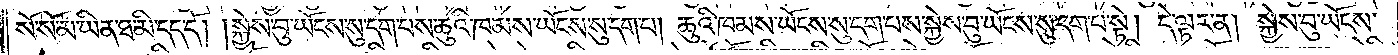སོ་སོ་མ་ཡིན་ཐ་མི་དད་དོ། །སྐྱེས་བུ་ཡོངས་སུ་དག་པས་ཆུའི་ཁམས་ཡོངས་སུ་དག་པ། ཆུའི་ཁམས་ཡོངས་སུ་དག་པས་སྐྱེས་བུ་ཡོངས་སུ་དག་པ་སྟེ། དེ་ལྟར་ན། སྐྱེས་བུ་ཡོངས་
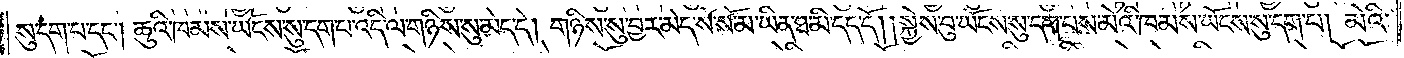སུ་དག་པ་དང༌། ཆུའི་ཁམས་ཡོངས་སུ་དག་པ་འདི་ལ་གཉིས་སུ་མེད་དེ། གཉིས་སུ་བྱར་མེད་སོ་སོ་མ་ཡིན་ཐ་མི་དད་དོ། །སྐྱེས་བུ་ཡོངས་སུ་དག་པས་མེའི་ཁམས་ཡོངས་སུ་དག་པ། མེའི་
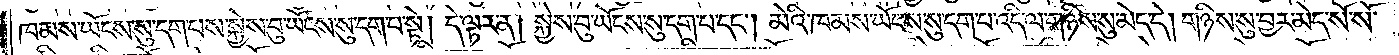ཁམས་ཡོངས་སུ་དག་པས་སྐྱེས་བུ་ཡོངས་སུ་དག་པ་སྟེ། དེ་ལྟར་ན། སྐྱེས་བུ་ཡོངས་སུ་དག་པ་དང༌། མེའི་ཁམས་ཡོངས་སུ་དག་པ་འདི་ལ་གཉིས་སུ་མེད་དེ། གཉིས་སུ་བྱར་མེད་སོ་སོ་
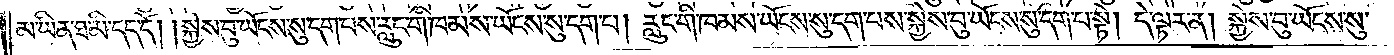མ་ཡིན་ཐ་མི་དད་དོ། །སྐྱེས་བུ་ཡོངས་སུ་དག་པས་རླུང་གི་ཁམས་ཡོངས་སུ་དག་པ། རླུང་གི་ཁམས་ཡོངས་སུ་དག་པས་སྐྱེས་བུ་ཡོངས་སུ་དག་པ་སྟེ། དེ་ལྟར་ན། སྐྱེས་བུ་ཡོངས་སུ་
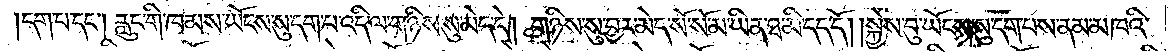དག་པ་དང༌། རླུང་གི་ཁམས་ཡོངས་སུ་དག་པ་འདི་ལ་གཉིས་སུ་མེད་དེ། གཉིས་སུ་བྱར་མེད་སོ་སོ་མ་ཡིན་ཐ་མི་དད་དོ། །སྐྱེས་བུ་ཡོངས་སུ་དག་པས་ནམ་མཁའི་
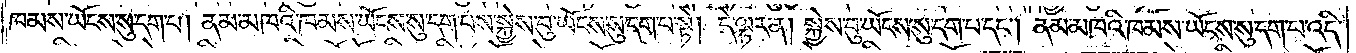ཁམས་ཡོངས་སུ་དག་པ། ནམ་མཁའི་ཁམས་ཡོངས་སུ་དག་པས་སྐྱེས་བུ་ཡོངས་སུ་དག་པ་སྟེ། དེ་ལྟར་ན། སྐྱེས་བུ་ཡོངས་སུ་དག་པ་དང༌། ནམ་མཁའི་ཁམས་ཡོངས་སུ་དག་པ་འདི་
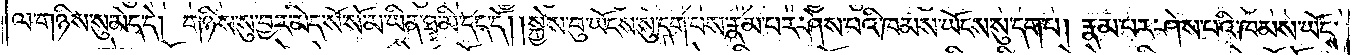ལ་གཉིས་སུ་མེད་དེ། གཉིས་སུ་བྱར་མེད་སོ་སོ་མ་ཡིན་ཐ་མི་དད་དོ། །སྐྱེས་བུ་ཡོངས་སུ་དག་པས་རྣམ་པར་ཤེས་པའི་ཁམས་ཡོངས་སུ་དག་པ། རྣམ་པར་ཤེས་པའི་ཁམས་ཡོངས་
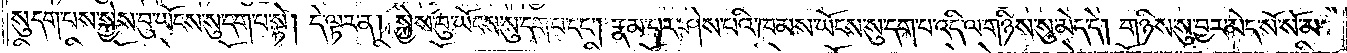སུ་དག་པས་སྐྱེས་བུ་ཡོངས་སུ་དག་པ་སྟེ། དེ་ལྟར་ན། སྐྱེས་བུ་ཡོངས་སུ་དག་པ་དང༌། རྣམ་པར་ཤེས་པའི་ཁམས་ཡོངས་སུ་དག་པ་འདི་ལ་གཉིས་སུ་མེད་དེ། གཉིས་སུ་བྱར་མེད་སོ་སོ་མ་
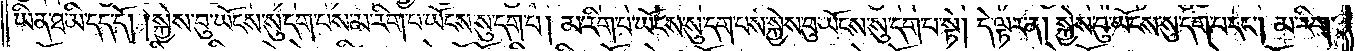ཡིན་ཐ་མི་དད་དོ། །སྐྱེས་བུ་ཡོངས་སུ་དག་པས་མ་རིག་པ་ཡོངས་སུ་དག་པ། མ་རིག་པ་ཡོངས་སུ་དག་པས་སྐྱེས་བུ་ཡོངས་སུ་དག་པ་སྟེ། དེ་ལྟར་ན། སྐྱེས་བུ་ཡོངས་སུ་དག་པ་དང༌། མ་རིག་
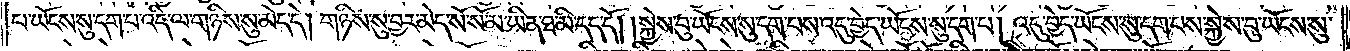པ་ཡོངས་སུ་དག་པ་འདི་ལ་གཉིས་སུ་མེད་དེ། གཉིས་སུ་བྱར་མེད་སོ་སོ་མ་ཡིན་ཐ་མི་དད་དོ། །སྐྱེས་བུ་ཡོངས་སུ་དག་པས་འདུ་བྱེད་ཡོངས་སུ་དག་པ། འདུ་བྱེད་ཡོངས་སུ་དག་པས་སྐྱེས་བུ་ཡོངས་སུ་
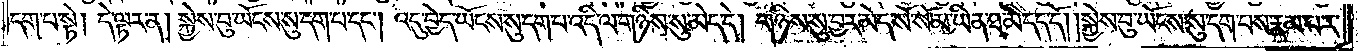དག་པ་སྟེ། དེ་ལྟར་ན། སྐྱེས་བུ་ཡོངས་སུ་དག་པ་དང༌། འདུ་བྱེད་ཡོངས་སུ་དག་པ་འདི་ལ་གཉིས་སུ་མེད་དེ། གཉིས་སུ་བྱར་མེད་སོ་སོ་མ་ཡིན་ཐ་མི་དད་དོ། །སྐྱེས་བུ་ཡོངས་སུ་དག་པས་རྣམ་པར་
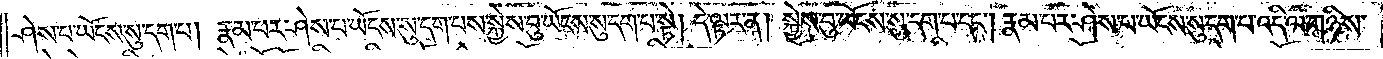ཤེས་པ་ཡོངས་སུ་དག་པ། རྣམ་པར་ཤེས་པ་ཡོངས་སུ་དག་པས་སྐྱེས་བུ་ཡོངས་སུ་དག་པ་སྟེ། དེ་ལྟར་ན། སྐྱེས་བུ་ཡོངས་སུ་དག་པ་དང༌། རྣམ་པར་ཤེས་པ་ཡོངས་སུ་དག་པ་འདི་ལ་གཉིས་
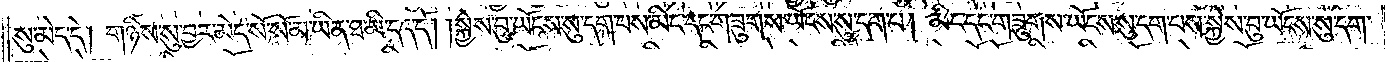སུ་མེད་དེ། གཉིས་སུ་བྱར་མེད་སོ་སོ་མ་ཡིན་ཐ་མི་དད་དོ། །སྐྱེས་བུ་ཡོངས་སུ་དག་པས་མིང་དང་གཟུགས་ཡོངས་སུ་དག་པ། མིང་དང་གཟུངས་ཡོངས་སུ་དག་པས་སྐྱེས་བུ་ཡོངས་སུ་དག་
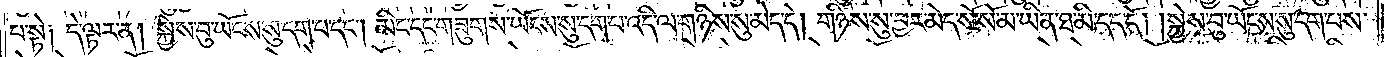པ་སྟེ༑ དེ་ལྟར་ན། སྐྱེས་བུ་ཡོངས་སུ་དག་པ་དང༌། མིང་དང་གཟུགས་ཡོངས་སུ་དག་པ་འདི་ལ་གཉིས་སུ་མེད་དེ། གཉིས་སུ་བྱར་མེད་སོ་སོ་མ་ཡིན་ཐ་མི་དད་དོ། །སྐྱེས་བུ་ཡོངས་སུ་དག་པས་
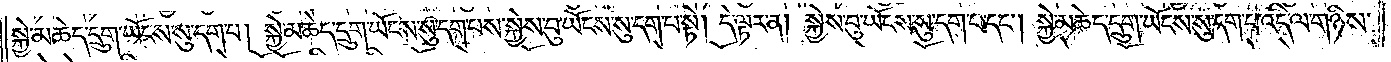སྐྱེ་མཆེད་དྲུག་ཡོངས་སུ་དག་པ། སྐྱེ་མཆེད་དྲུག་ཡོངས་སུ་དག་པས་སྐྱེས་བུ་ཡོངས་སུ་དག་པ་སྟེ། དེ་ལྟར་ན། སྐྱེས་བུ་ཡོངས་སུ་དག་པ་དང༌། སྐྱེ་མཆེད་དྲུག་ཡོངས་སུ་དག་པ་འདི་ལ་གཉིས་
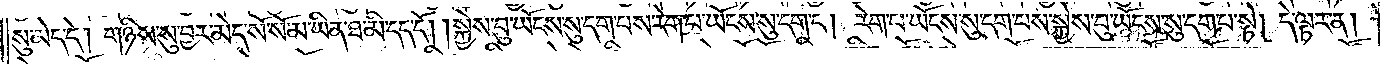སུ་མེད་དེ། གཉིས་སུ་བྱར་མེད་སོ་སོ་མ་ཡིན་ཐ་མི་དད་དོ། །སྐྱེས་བུ་ཡོངས་སུ་དག་པས་རེག་པ་ཡོངས་སུ་དག་པ། རེག་པ་ཡོངས་སུ་དག་པས་སྐྱེས་བུ་ཡོངས་སུ་དག་པ་སྟེ། དེ་ལྟར་ན།
